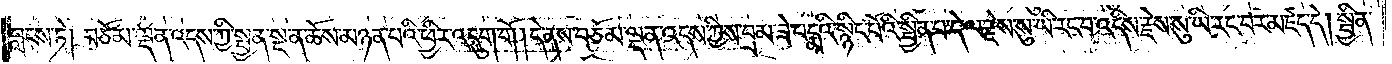བླངས་ཏེ། བཅོམ་ལྡན་འདས་ཀྱི་སྤྱན་སྔ་ན་ཆོས་མཉན་པའི་ཕྱིར་འདུག་གོ །དེ་ནས་བཅོམ་ལྡན་འདས་ཀྱིས་བྲམ་ཟེའི་པདྨའི་སྙིང་པོའི་སྦྱིན་པ་དེ་ལ་རྗེས་སུ་ཡི་རང་བ་འདིས་རྗེས་སུ་ཡི་རང་བར་མཛད་དེ། སྦྱིན་
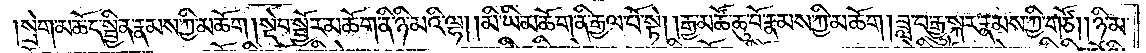སྲེག་མཆོད་སྦྱིན་རྣམས་ཀྱི་མཆོག །སྡེབ་སྦྱོར་མཆོག་ནི་ཉི་མའི་ལྷ། །མི་ཡི་མཆོག་ནི་རྒྱལ་པོ་སྟེ། །རྒྱ་མཚོ་ཆུ་བོ་རྣམས་ཀྱི་མཆོག །ཟླ་བ་རྒྱུ་སྐར་རྣམས་ཀྱི་གཙོ། །ཉི་མ་
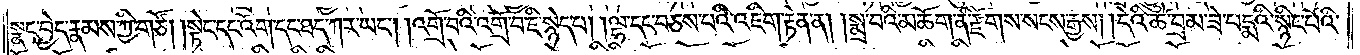སྣང་བྱེད་རྣམས་ཀྱི་གཙོ། །སྟེང་དང་འོག་དང་ཐད་ཀར་ཡང༌། །འགྲོ་བའི་འགྲོ་བ་ཇི་སྙེད་པ། །ལྷ་དང་བཅས་པའི་འཇིག་རྟེན་ན། །སྨྲ་བའི་མཆོག་ནི་རྫོགས་སངས་རྒྱས། །དེའི་ཚེ་བྲམ་ཟེ་པདྨའི་སྙིང་པོའི་
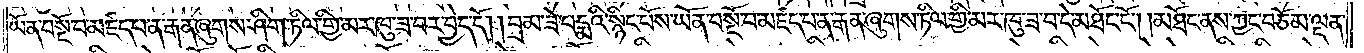ཡོན་བསྔོ་བ་མཛད་པ་ན་རྒན་ཞུགས་ཤིག་ཏིལ་གྱི་མར་ཁུ་ཟ་བར་བྱེད་དོ། །བྲམ་ཟེ་པདྨའི་སྙིང་པོས་ཡོན་བསྔོ་བ་མཛད་པ་ན་རྒན་ཞུགས་ཏིལ་གྱི་མར་ཁུ་ཟ་བ་དེ་མཐོང་ངོ༌། །མཐོང་ནས་ཀྱང་བཅོམ་ལྡན་
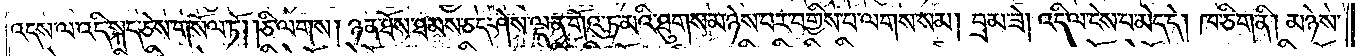འདས་ལ་འདི་སྐད་ཅེས་གསོལ་ཏོ། །ཅི་ལགས། ཉན་ཐོས་ཐམས་ཅད་ཤེས་ལྡན་གོའུ་ཏ་མའི་ཐུགས་མཉེས་པར་བགྱིས་པ་ལགས་སམ། བྲམ་ཟེ། འདི་ལ་ངེས་པ་མེད་དེ། ཁ་ཅིག་ནི། མཉེས་
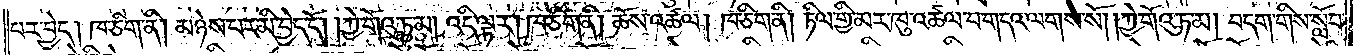པར་བྱེད། ཁ་ཅིག་ནི། མཉེས་པར་མི་བྱེད་དོ། །ཀྱེ་གོའུ་ཏ་མ། འདི་ལྟར། ཁ་ཅིག་ནི། ཆོས་འཚལ། ཁ་ཅིག་ནི། ཏིལ་གྱི་མར་ཁུ་འཚལ་བ་གདའ་ལགས་སོ། །ཀྱེ་གོའུ་ཏ་མ། བདག་གིས་སློབ་
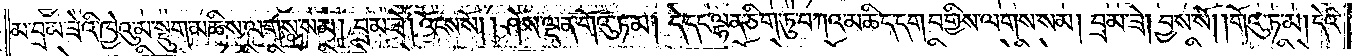མ་བྲམ་ཟེའི་ཁྱེའུ་མ་སྡུག་མཆིས་ལགས་སམ། བྲམ་ཟེ། འོངས་སོ། །ཤེས་ལྡན་གོའུ་ཏ་མ། དེ་དང་ལྷན་ཅིག་ཏུ་བཀའ་མཆིད་དག་བགྱིས་ལགས་སམ། བྲམ་ཟེ། བྱས་སོ། །གོའུ་ཏ་མ། དེའི་
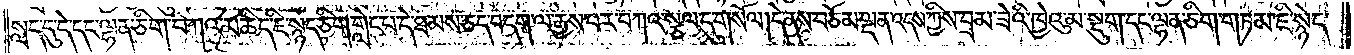སླད་དུ་དེ་དང་ལྷན་ཅིག་བཀའ་མཆིད་ཇི་སྙེད་ཅིག་གླེང་པ་དེ་ཐམས་ཅད་བདག་ལ་རྒྱས་པར་བཀའ་སྩལ་དུ་གསོལ། དེ་ནས་བཅོམ་ལྡན་འདས་ཀྱིས་བྲམ་ཟེའི་ཁྱེའུ་མ་སྡུག་དང་ལྷན་ཅིག་གཏམ་ཇི་སྙེད་
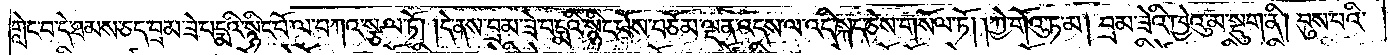གླེང་པ་དེ་ཐམས་ཅད་བྲམ་ཟེ་པདྨའི་སྙིང་པོ་ལ་བཀའ་སྩལ་ཏོ། །དེ་ནས་བྲམ་ཟེ་པདྨའི་སྙིང་པོས་བཅོམ་ལྡན་འདས་ལ་འདི་སྐད་ཅེས་གསོལ་ཏོ། །ཀྱེ་གོའུ་ཏ་མ། བྲམ་ཟེའི་ཁྱེའུ་མ་སྡུག་ནི། བུས་པའི་
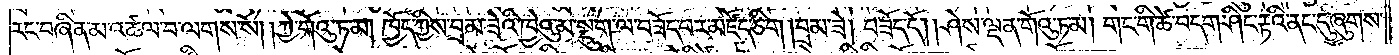རང་བཞིན་མ་འཚལ་བ་ལགས་སོ། །ཀྱེ་གོའུ་ཏ་མ། ཁྱོད་ཀྱིས་བྲམ་ཟེའི་ཁྱེའུ་མ་སྡུག་ལ་བཟོད་པར་མཛོད་ཅིག །བྲམ་ཟེ། བཟོད་དོ། །ཤེས་ལྡན་གོའུ་ཏ་མ། གང་གི་ཚེ་བདག་ཤིང་རྟའི་ནང་དུ་ཞུགས་
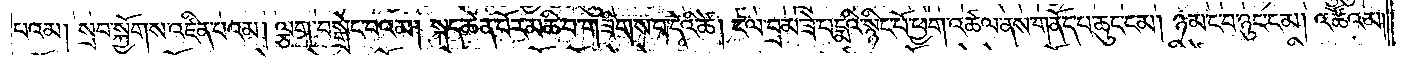པའམ། སྲབ་སྐྱོགས་འཛིན་པའམ། ལྕག་བསྒྲེང་བའམ། སྐད་ཆེན་པོར་མཆི་བ་གཟིགས་པ་དེའི་ཚེ། ང་ལ་བྲམ་ཟེ་པདྨའི་སྙིང་པོ་ཕྱག་འཚལ་ནས་གནོད་པ་ཆུང་ངམ། ཉམ་ང་བ་ཉུང་ངམ། འཚོའམ།
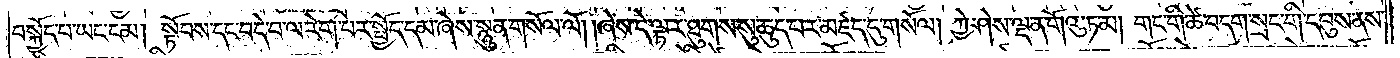བསྐྱོད་པ་ཡང་ངམ། སྟོབས་དང་བདེ་བ་ལ་རེག་པར་སྤྱོད་དམ་ཞེས་སྙུན་གསོལ་ལོ། །ཞེས་དེ་ལྟར་ཐུགས་སུ་ཆུད་པར་མཛད་དུ་གསོལ། ཀྱེ་ཤེས་ལྡན་གོའུ་ཏ་མ། གང་གི་ཚེ་བདག་སྲང་གི་དབུས་ནས་
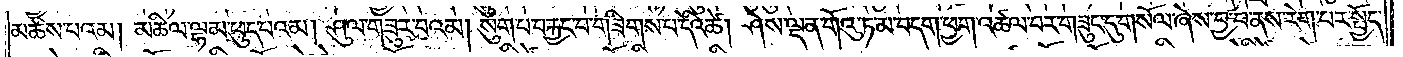མཆིས་པའམ། མཆིལ་ལྷམ་ཕུད་པའམ། ཤུལ་གཟུར་བའམ། སུག་པ་བརྐྱང་པ་གཟིགས་པ་དེའི་ཚེ། ཤེས་ལྡན་གོའུ་ཏ་མ་བདག་ཕྱག་འཚལ་བར་གཟུང་དུ་གསོལ་ཞེས་བྱ་བ་ནས་རེག་པར་སྤྱོད་
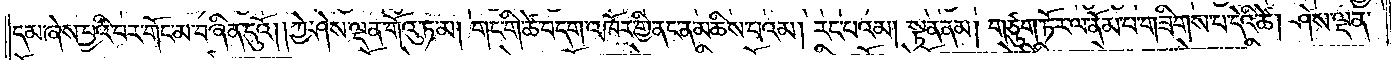དམ་ཞེས་བྱའི་བར་གོང་མ་བཞིན་དུའོ། །ཀྱེ་ཤེས་ལྡན་གོའུ་ཏ་མ། གང་གི་ཚེ་བདག་འཁོར་གྱི་ནང་ན་མཆིས་པའམ། རང་པའམ། སྟན་ནམ། གཙུག་ཏོར་ལ་ནོམ་པ་གཟིགས་པ་དེའི་ཚེ། ཤེས་ལྡན་
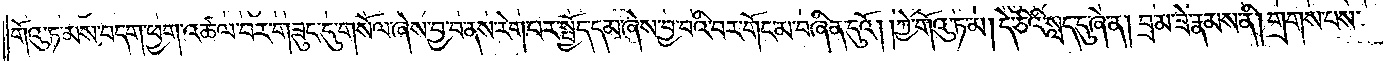གོའུ་ཏ་མས་བདག་ཕྱག་འཚལ་བར་གཟུང་དུ་གསོལ་ཞེས་བྱ་བ་ནས་རེག་པར་སྤྱོད་དམ་ཞེས་བྱ་བའི་བར་གོང་མ་བཞིན་དུའོ། །ཀྱེ་གོའུ་ཏ་མ། དེ་ཅིའི་སླད་དུ་ཞེ་ན། བྲམ་ཟེ་རྣམས་ནི། གྲགས་པས་
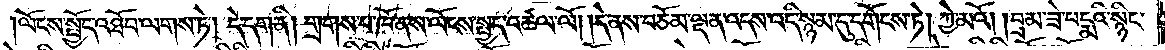།ལོངས་སྤྱོད་འཐོབ་ལགས་ཏེ། དེ་དག་ནི། གྲགས་པ་ཁོ་ནས་ལོངས་སྤྱད་འཚལ་ལོ། །དེ་ནས་བཅོམ་ལྡན་འདས་འདི་སྙམ་དུ་དགོངས་ཏེ། ཀྱེ་མའོ། །བྲམ་ཟེ་པདྨའི་སྙིང་
